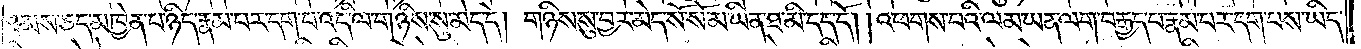ཐམས་ཅད་མཁྱེན་པ་ཉིད་རྣམ་པར་དག་པ་འདི་ལ་གཉིས་སུ་མེད་དེ། གཉིས་སུ་བྱར་མེད་སོ་སོ་མ་ཡིན་ཐ་མི་དད་དོ། །འཕགས་པའི་ལམ་ཡན་ལག་བརྒྱད་པ་རྣམ་པར་དག་པས་ཡིད་
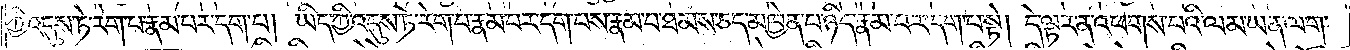ཀྱི་འདུས་ཏེ་རེག་པ་རྣམ་པར་དག་པ། ཡིད་ཀྱི་འདུས་ཏེ་རེག་པ་རྣམ་པར་དག་པས་རྣམ་པ་ཐམས་ཅད་མཁྱེན་པ་ཉིད་རྣམ་པར་དག་པ་སྟེ། དེ་ལྟར་ན་འཕགས་པའི་ལམ་ཡན་ལག་
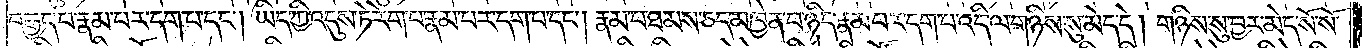བརྒྱད་པ་རྣམ་པར་དག་པ་དང༌། ཡིད་ཀྱི་འདུས་ཏེ་རེག་པ་རྣམ་པར་དག་པ་དང༌། རྣམ་པ་ཐམས་ཅད་མཁྱེན་པ་ཉིད་རྣམ་པར་དག་པ་འདི་ལ་གཉིས་སུ་མེད་དེ། གཉིས་སུ་བྱར་མེད་སོ་སོ་
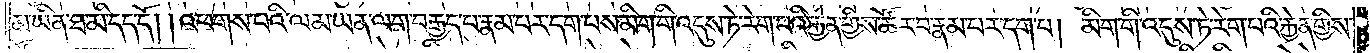མ་ཡིན་ཐ་མི་དད་དོ། །འཕགས་པའི་ལམ་ཡན་ལག་བརྒྱད་པ་རྣམ་པར་དག་པས་མིག་གི་འདུས་ཏེ་རེག་པའི་རྐྱེན་གྱིས་ཚོར་བ་རྣམ་པར་དག་པ། མིག་གི་འདུས་ཏེ་རེག་པའི་རྐྱེན་གྱིས་
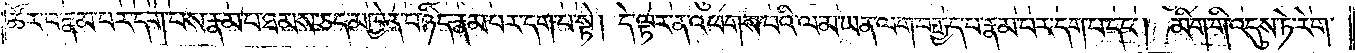ཚོར་བ་རྣམ་པར་དག་པས་རྣམ་པ་ཐམས་ཅད་མཁྱེན་པ་ཉིད་རྣམ་པར་དག་པ་སྟེ། དེ་ལྟར་ན་འཕགས་པའི་ལམ་ཡན་ལག་བརྒྱད་པ་རྣམ་པར་དག་པ་དང༌། མིག་གི་འདུས་ཏེ་རེག་
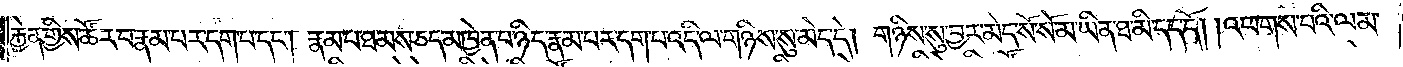རྐྱེན་གྱིས་ཚོར་བ་རྣམ་པར་དག་པ་དང༌། རྣམ་པ་ཐམས་ཅད་མཁྱེན་པ་ཉིད་རྣམ་པར་དག་པ་འདི་ལ་གཉིས་སུ་མེད་དེ། གཉིས་སུ་བྱར་མེད་སོ་སོ་མ་ཡིན་ཐ་མི་དད་དོ། །འཕགས་པའི་ལམ་
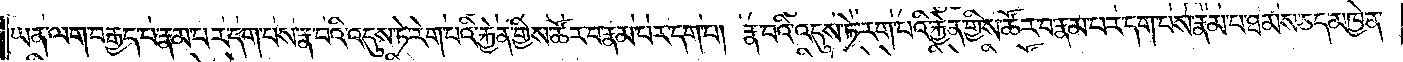ཡན་ལག་བརྒྱད་པ་རྣམ་པར་དག་པས་རྣ་བའི་འདུས་ཏེ་རེག་པའི་རྐྱེན་གྱིས་ཚོར་བ་རྣམ་པར་དག་པ། རྣ་བའི་འདུས་ཏེ་རེག་པའི་རྐྱེན་གྱིས་ཚོར་བ་རྣམ་པར་དག་པས་རྣམ་པ་ཐམས་ཅད་མཁྱེན་
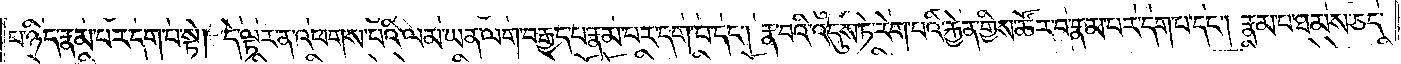པ་ཉིད་རྣམ་པར་དག་པ་སྟེ། དེ་ལྟར་ན་འཕགས་པའི་ལམ་ཡན་ལག་བརྒྱད་པ་རྣམ་པར་དག་པ་དང༌། རྣ་བའི་འདུས་ཏེ་རེག་པའི་རྐྱེན་གྱིས་ཚོར་བ་རྣམ་པར་དག་པ་དང༌། རྣམ་པ་ཐམས་ཅད་
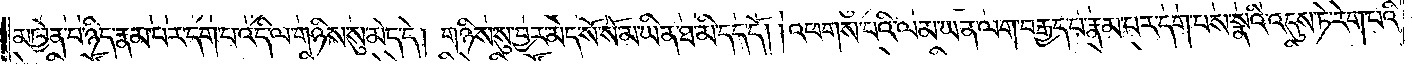མཁྱེན་པ་ཉིད་རྣམ་པར་དག་པ་འདི་ལ་གཉིས་སུ་མེད་དེ། གཉིས་སུ་བྱར་མེད་སོ་སོ་མ་ཡིན་ཐ་མི་དད་དོ། །འཕགས་པའི་ལམ་ཡན་ལག་བརྒྱད་པ་རྣམ་པར་དག་པས་སྣའི་འདུས་ཏེ་རེག་པའི་
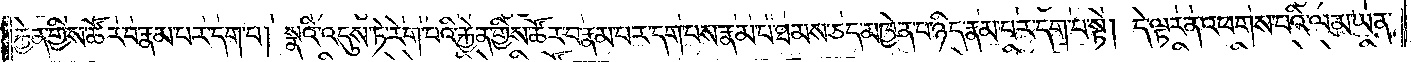རྐྱེན་གྱིས་ཚོར་བ་རྣམ་པར་དག་པ། སྣའི་འདུས་ཏེ་རེག་པའི་རྐྱེན་གྱིས་ཚོར་བ་རྣམ་པར་དག་པས་རྣམ་པ་ཐམས་ཅད་མཁྱེན་པ་ཉིད་རྣམ་པར་དག་པ་སྟེ། དེ་ལྟར་ན་འཕགས་པའི་ལམ་ཡན་
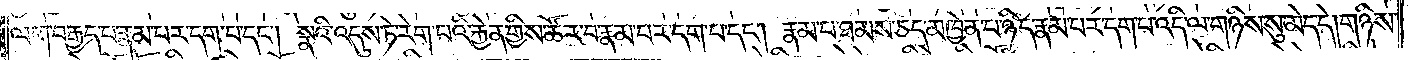ལག་བརྒྱད་པ་རྣམ་པར་དག་པ་དང༌། སྣའི་འདུས་ཏེ་རེག་པའི་རྐྱེན་གྱིས་ཚོར་བ་རྣམ་པར་དག་པ་དང༌། རྣམ་པ་ཐམས་ཅད་མཁྱེན་པ་ཉིད་རྣམ་པར་དག་པ་འདི་ལ་གཉིས་སུ་མེད་དེ། གཉིས་
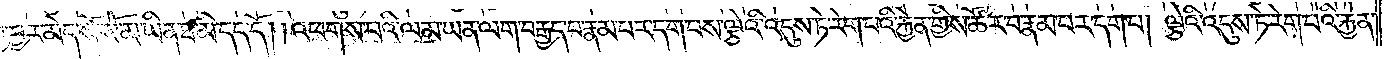སུ་བྱར་མེད་སོ་སོ་མ་ཡིན་ཐ་མི་དད་དོ། །འཕགས་པའི་ལམ་ཡན་ལག་བརྒྱད་པ་རྣམ་པར་དག་པས་ལྕེའི་འདུས་ཏེ་རེག་པའི་རྐྱེན་གྱིས་ཚོར་བ་རྣམ་པར་དག་པ། ལྕེའི་འདུས་ཏེ་རེག་པའི་རྐྱེན་
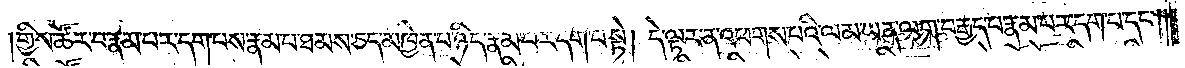གྱིས་ཚོར་བ་རྣམ་པར་དག་པས་རྣམ་པ་ཐམས་ཅད་མཁྱེན་པ་ཉིད་རྣམ་པར་དག་པ་སྟེ། དེ་ལྟར་ན་འཕགས་པའི་ལམ་ཡན་ལག་བརྒྱད་པ་རྣམ་པར་དག་པ་དང༌།
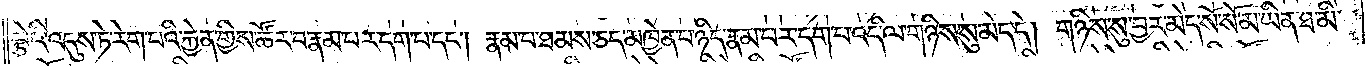ལྕེའི་འདུས་ཏེ་རེག་པའི་རྐྱེན་གྱིས་ཚོར་བ་རྣམ་པར་དག་པ་དང༌། རྣམ་པ་ཐམས་ཅད་མཁྱེན་པ་ཉིད་རྣམ་པར་དག་པ་འདི་ལ་གཉིས་སུ་མེད་དེ། གཉིས་སུ་བྱར་མེད་སོ་སོ་མ་ཡིན་ཐ་མི་
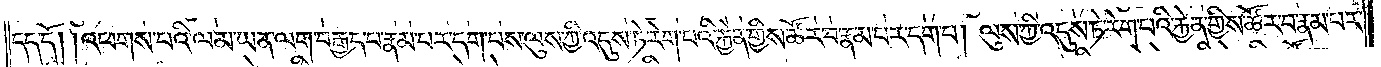དད་དོ། །འཕགས་པའི་ལམ་ཡན་ལག་བརྒྱད་པ་རྣམ་པར་དག་པས་ལུས་ཀྱི་འདུས་ཏེ་རེག་པའི་རྐྱེན་གྱིས་ཚོར་བ་རྣམ་པར་དག་པ། ལུས་ཀྱི་འདུས་ཏེ་རེག་པའི་རྐྱེན་གྱིས་ཚོར་བ་རྣམ་པར་
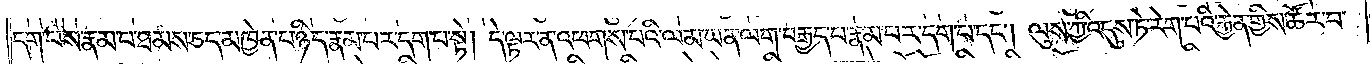དག་པས་རྣམ་པ་ཐམས་ཅད་མཁྱེན་པ་ཉིད་རྣམ་པར་དག་པ་སྟེ། དེ་ལྟར་ན་འཕགས་པའི་ལམ་ཡན་ལག་བརྒྱད་པ་རྣམ་པར་དག་པ་དང༌། ལུས་ཀྱི་འདུས་ཏེ་རེག་པའི་རྐྱེན་གྱིས་ཚོར་བ་
